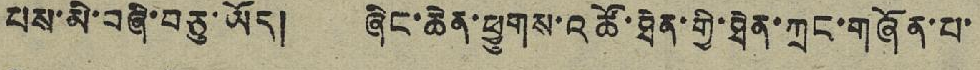པས་མེ་བཞི་བཅུ་ཡོད། ཞིང་ཆེན་ཕྱུགས་འཚོ་ཐེན་གྱི་ཐེན་ཀྲང་གཞོན་པ་
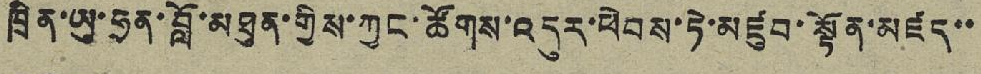ཁྲིན་ཡུ་ཧྲན་བློ་མཐུན་གྱིས་ཀྱང་ཚོགས་འདུར་ཕེབས་ཏེ་མཛུབ་སྟོན་མཛད་་
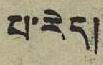པ་རེད།
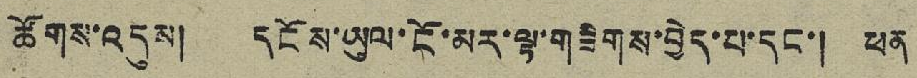ཚོགས་འདུས། དངོས་ཡུལ་ངོ་མར་ལྟ་གཟིགས་བྱེད་པ་དང་། ཕན
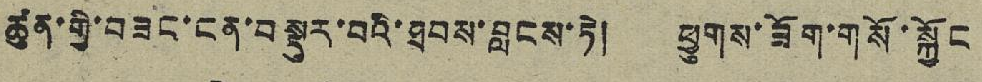ཚུན་གྱི་བཟང་ངན་བསྡུར་བའི་ཐབས་བླངས་ཏེ། ཕྱུགས་ཟོག་གསོ་སྐྱོང
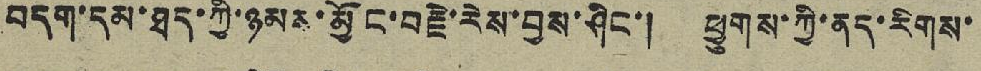བདག་དམ་ཐད་ཀྱི་ཉམས་མྱོང་བརྗེ་རེས་བྱས་ཤིང་། ཕྱུགས་ཀྱི་ནད་རིགས་
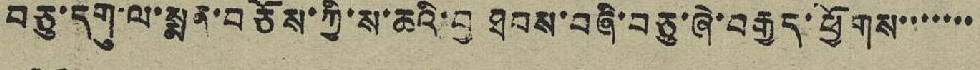བཅུ་དགུ་ལ་སྨན་བཅོས་ཀྱི་ས་ཆའི་བྱ ཐབས་བཞི་བཅུ་ཞེ་བརྒྱད་ཕྱོགས་་་་་་་
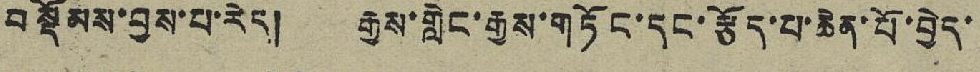བསྡོམས་བྱས་པ་རེད། རྒྱས་གླེང་རྒྱས་གཏོང་དང་རྩོད་པ་ཆེན་པོ་བྱེད་
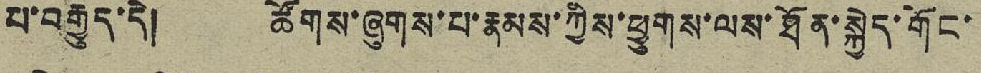པ་བརྒྱུད་དེ། ཚོགས་ཞུགས་པ་རྣམས་ཀྱིས་ཕྱུགས་ལས་ཐོན་སྐྱེད་གོང་
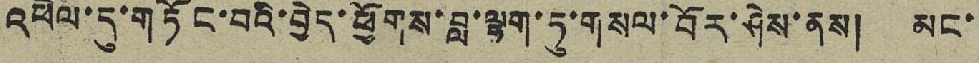འཕེལ་དུ་གཏོང་བའི་བྱེད་ཕྱོགས་བླ་ལྷག་ཏུ་གསལ་བོར་ཤེས་ནས། མང་
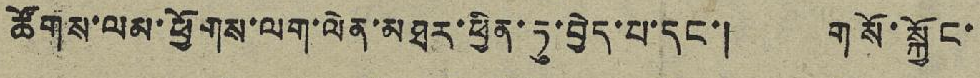ཚོགས་ལམ་ཕྱོགས་ལག་ལེན་མཐར་ཕྱིན་ཏུ་བྱེད་པ་དང་། གསོ་སྐྱོང་
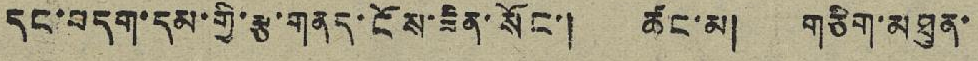དང་བདག་དམ་གྱི་རྩ་གནད་ངོས་ཟིན་སོང་། ཚང་མ། གཅིག་མཐུན་
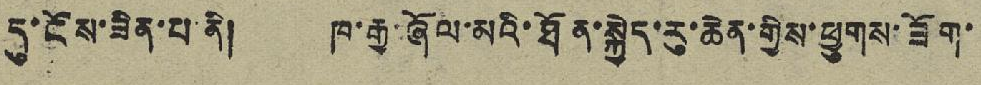དུ་ངོས་ཟིན་པ་ནི། ཁ་རྒྱ་ཞོལ་མའི་ཐོན་སྐྱེད་རུ་ཆེན་གྱིས་ཕྱུགས་ཟོག་
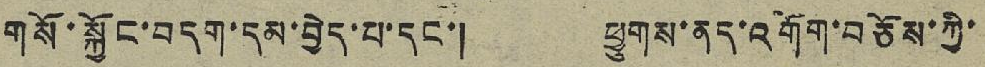གསོ་སྐྱོང་བདག་དམ་བྱེད་པ་དང་། ཕྱུགས་ནད་འགོག་བཅོས་ཀྱི་
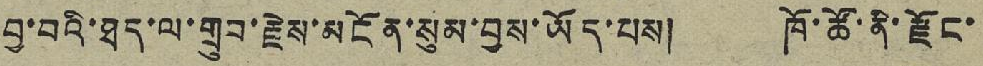བྱ་བའི་ཐད་ལ་གྲུབ་རྗེས་མངོན་སུམ་བྱས་ཡོད་པས། ཁོ་ཚོ་ནི་རྫོང་
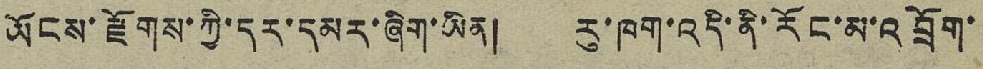ཡོངས་རྫོགས་ཀྱི་དར་དམར་ཞིག་ཡིན། རུ་ཁག་འདི་ནི་རོང་མ་འབྲོག་
